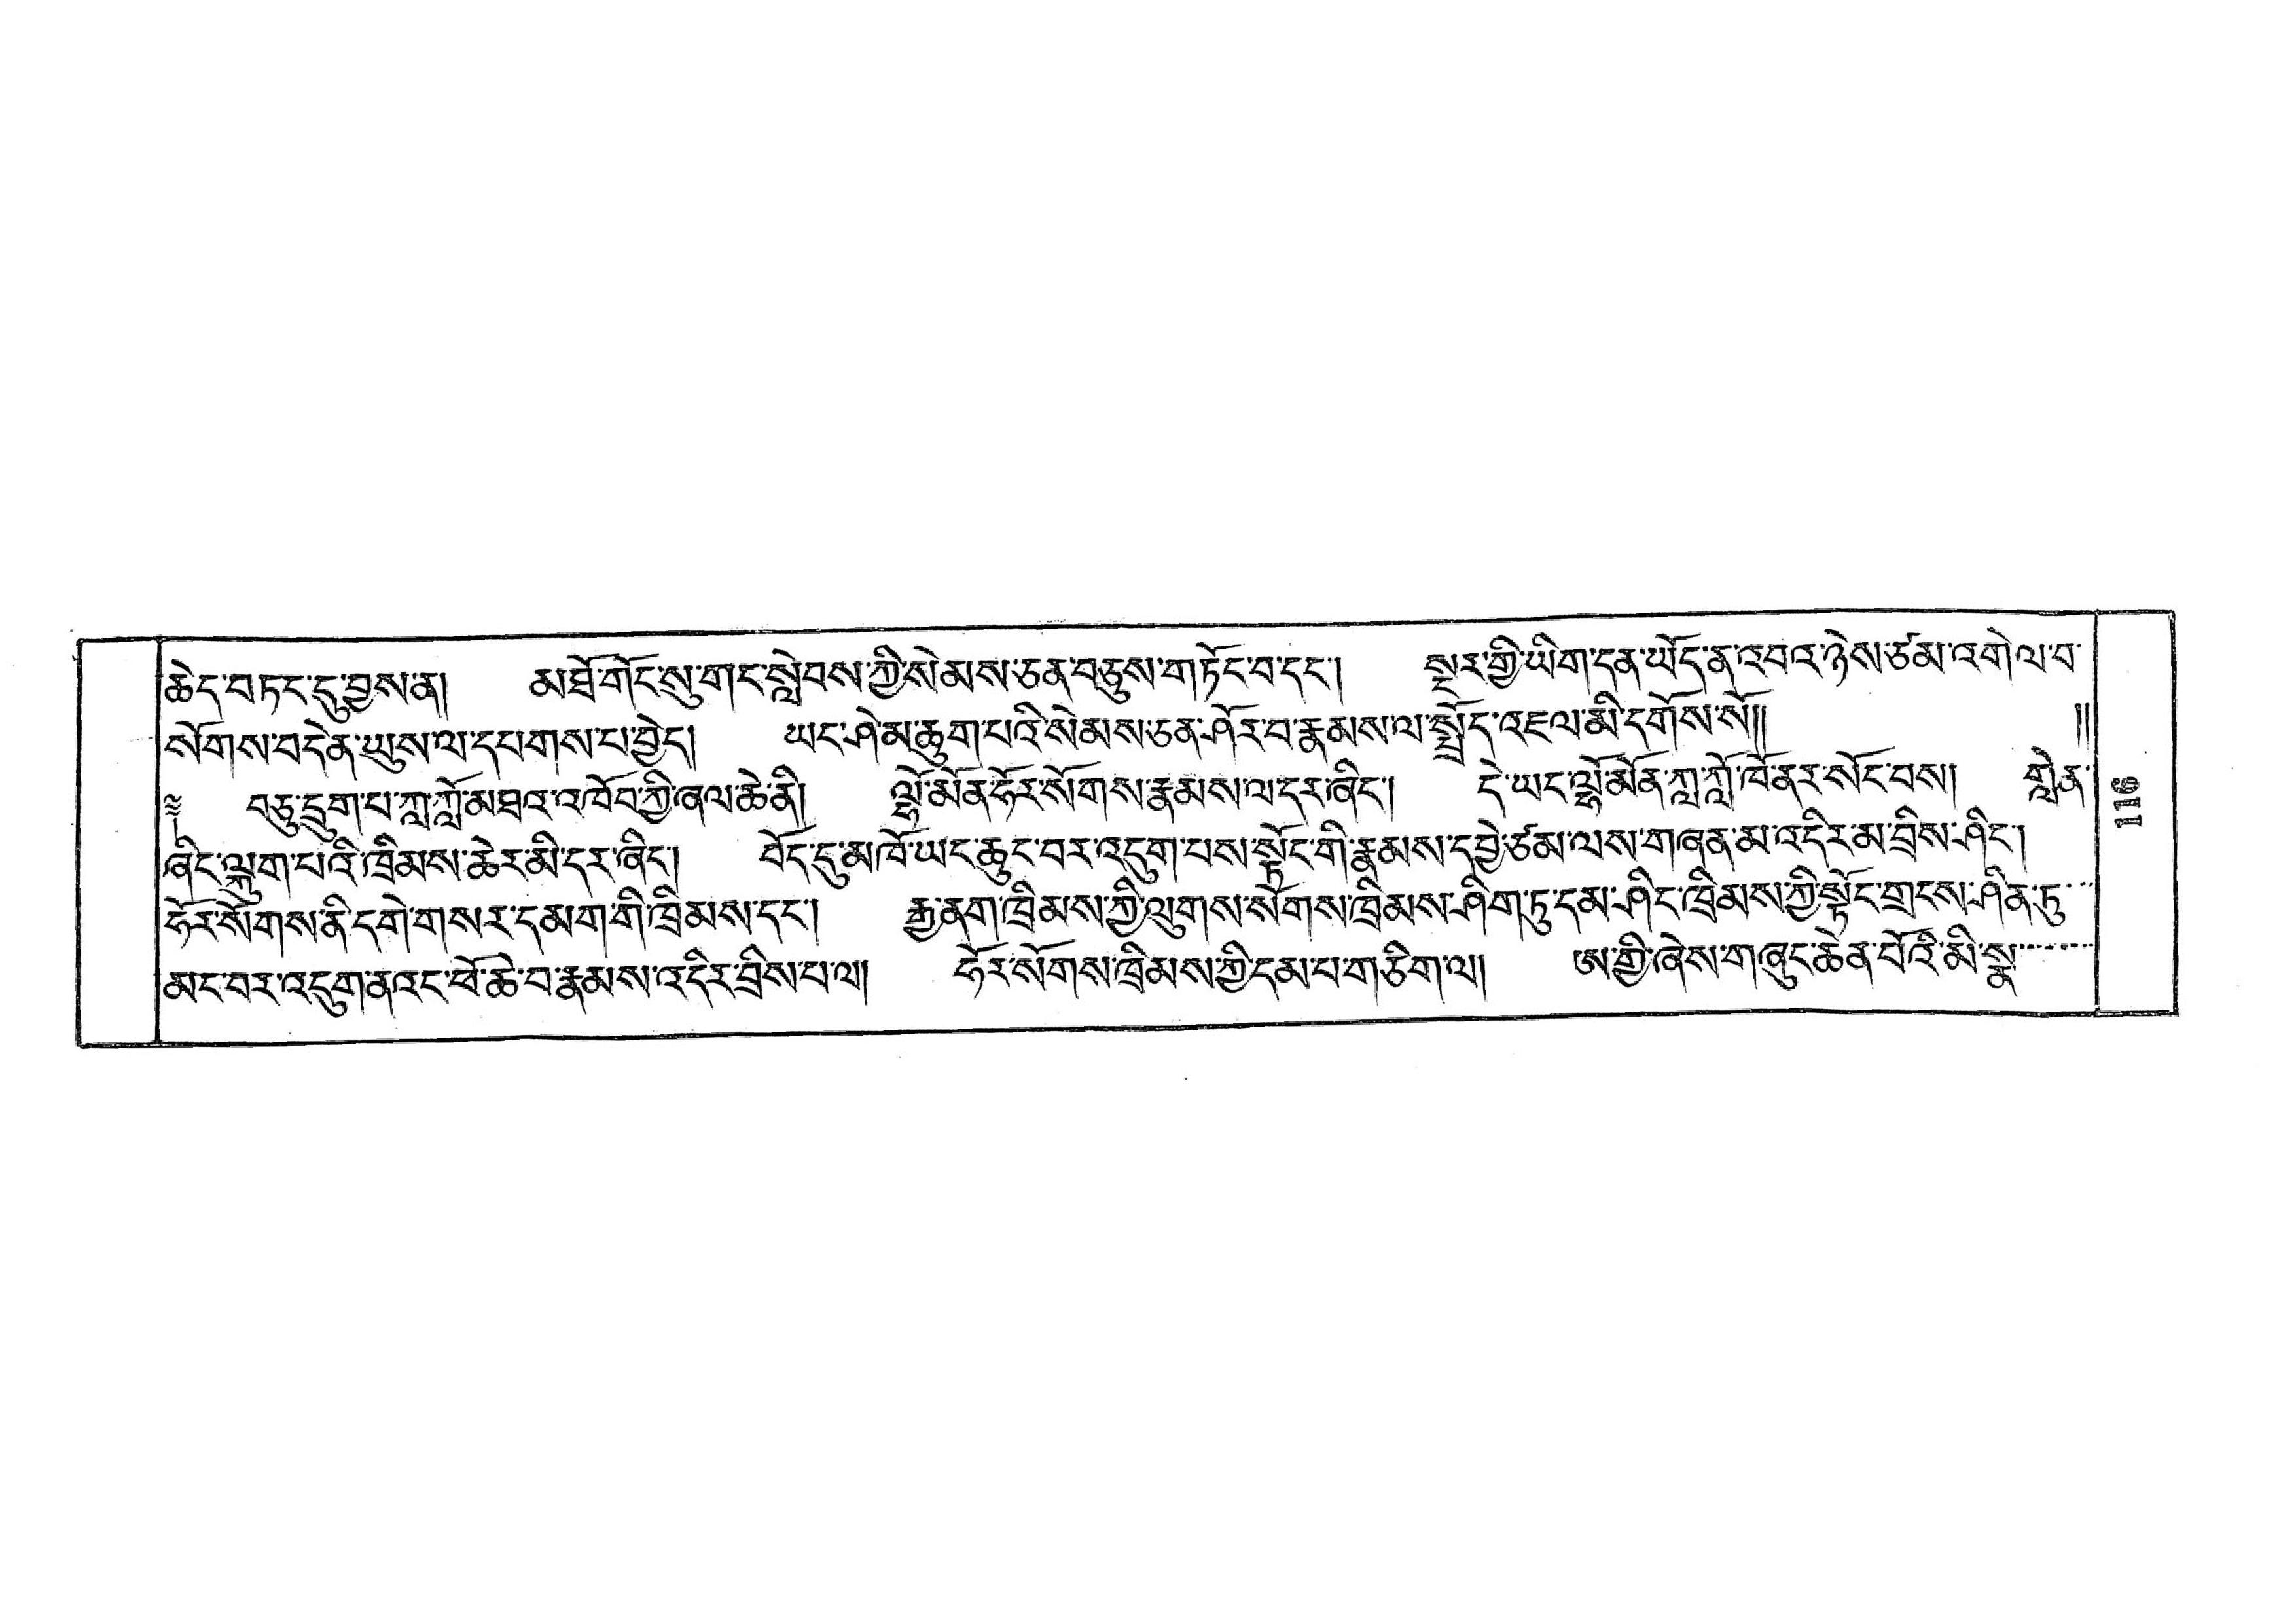ཆེད་བཏང་དུ་བྱས་ན། མཐོ་གོང་སུ་གང་སླེབས་ཀྱི་སེམས་ཅན་བཅུས་གཏོང་བ་དང་། སྔར་གྱི་ཡིག་དན་ཡོད་ན་འབའ་ཉེས་ཙམ་འགེལ་བ་
སོགས་བདེན་ཡུས་ལ་དཔགས་པ་བྱེད། ཡང་ཤེ་མ་ཆུག་པའི་སེམས་ཅན་ཤོར་བ་རྣམས་ལ་སྤྲོད་འཇལ་མི་དགོས་སོ།།  །།
༈ བཅུ་དྲུག་པ་ཀླ་ཀློ་མཐའ་འཁོབ་ཀྱི་ཞལ་ཆེ་ནི། ལྷོ་མོན་ཧོར་སོགས་རྣམས་ལ་དར་ཞིང་། དེ་ཡང་ལྷོ་མོན་ཀླ་ཀློ་ཁོ་ནར་སོང་བས། གླེན་
ཞིང་ལྐུག་པའི་ཁྲིམས་ཆེར་མི་དར་ཞིང་། བོད་དུ་མཁོ་ཡང་ཆུང་བར་འདུག་པས་སྟོང་གི་རྣམས་དབྱེ་ཙམ་ལས་གཞན་མ་འདིར་མ་བྲིས་ཤིང་།
ཧོར་སོགས་ནི་དགེ་གསར་དམག་གི་ཁྲིམས་དང་། རྒྱ་ནག་ཁྲིམས་གྱི་ལུགས་སོགས་ཁྲིམས་ཤིག་ཏུ་དམ་ཤིང་ཁྲིམས་ཀྱི་སྟོང་གྲངས་ཤིན་ཏུ་་་
མད་བར་འདུག་ནའང་ཕོ་ཆེ་བ་རྣམས་འདིར་བྲིས་པ་ལ། ཧོར་སོགས་ཁྲིམས་ཀྱི་དམ་པ་གཅིག་ལ། ཨ་གྱི་ཞེས་གཞུང་ཆེན་པོའི་མི་སྣ་་་་་་་
